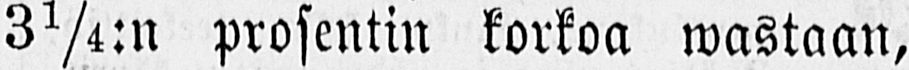3¼:n prosentin korkoa wastaan,
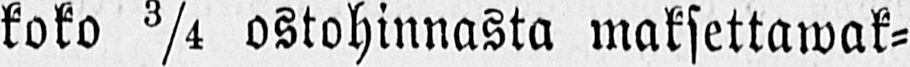koko ¾ ostohinnasta maksettawak-
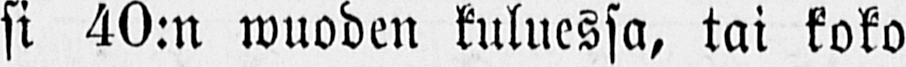si 40:n wuoden kuluessa, tai koko
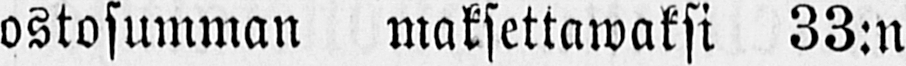ostosumman maksettawaksi 33:n
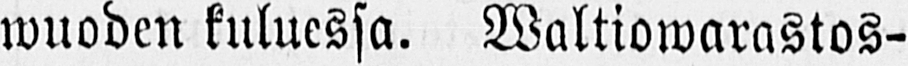wuoden kuluessa. Waltiowarastos-
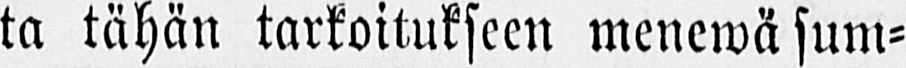ta tähän tarkoitukseen menewä sum-
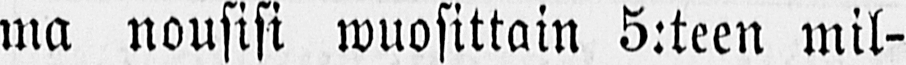ma nousisi wuosittain 5:teen mil-
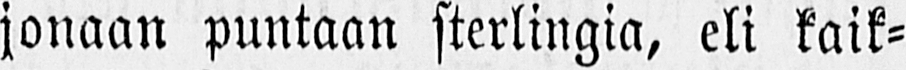jonaan puntaan sterlingia, eli kaik-
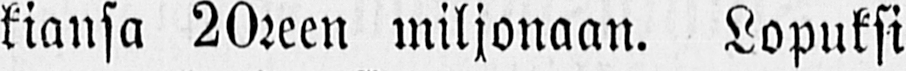kiansa 20@een miljonaan. Lopuksi
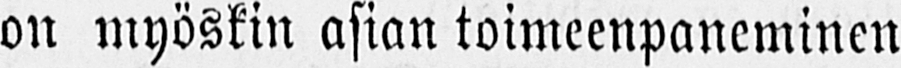on myöskin asian toimeenpaneminen
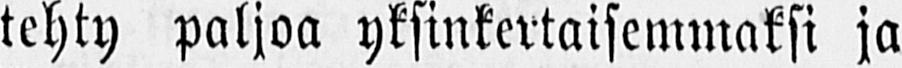tehty paljoa yksinkertaisemmaksi ja
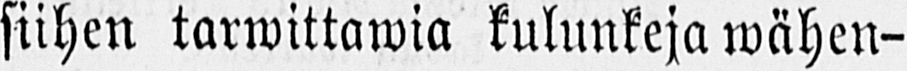siihen tarwittawia kulunkeja wähen-
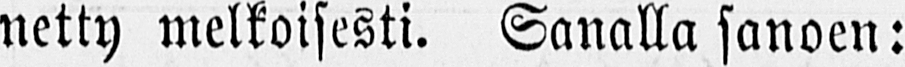netty melkoisesti. Sanalla sanoen:
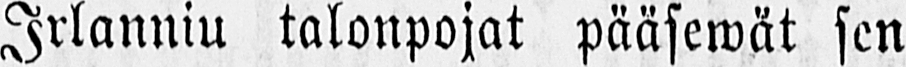Irlanniu talonpojat pääsewät sen
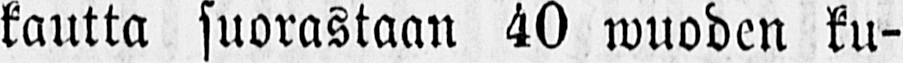kautta suorastaan 40 wuoden ku-
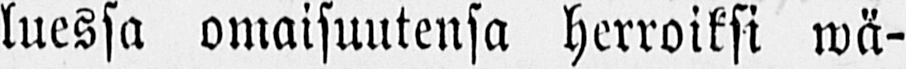luessa omaisuutensa herroiksi wä-
